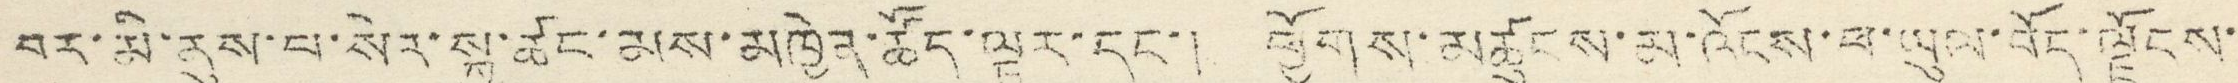བར་མི་རུང་པ་སེར་སྐྱ་ཚང་མས་མཁྱེན་ཚོད་ལྟར་དང་། ཕྱོགས་མཚུངས་མ་འོངས་ཕ་ཡུལ་བོད་ལྗོངས་
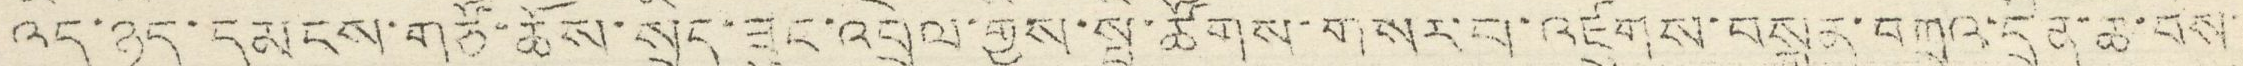འདི་ཉིད་དམངས་གཙོ་ཆོས་སྲིད་ཟུང་འབྲེལ་གྱིས་སྤྱི་ཚོགས་གསར་པ་འཛུགས་བསྐྲུན་བཀའ་དྲིན་ཆེ་བས་
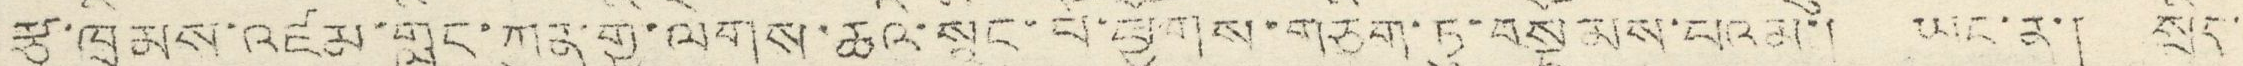རྩ་ཁྲིམས་འཛམ་གླིང་ཀུན་གྱི་ལེགས་ཆའི་སྙིང་པོ་ཕྱོགས་གཅིག་ཏུ་བསྡོམས་པའམ་། ཡང་ན་། སྲིད་
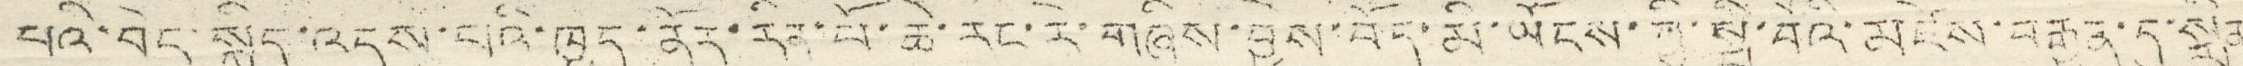པའི་བདེ་སྐྱིད་འདུས་པའི་ཁྱད་ནོར་རིན་པོ་ཆེ་རང་རེ་གཞིས་བྱས་བོད་མི་ཡོངས་ཀྱི་སྤྱི་བོའི་མཛེས་བརྒྱན་དུ་སྨིན
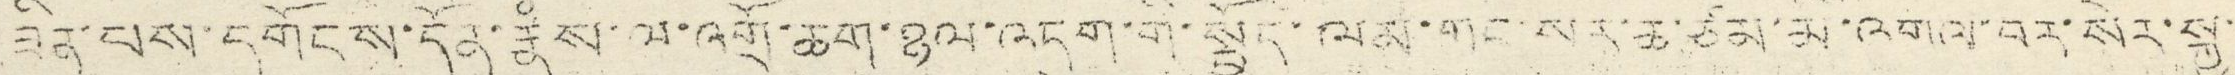ཟིན་པས་དགོངས་དོན་རྣཾས་ལ་འགྲོ་ཆག་ཉལ་འདུག་གི་སྤྱོད་ལམ་གང་སར་ཆ་ཙམ་མི་འགལ་བར་སེར་སྐྱ་
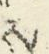ས
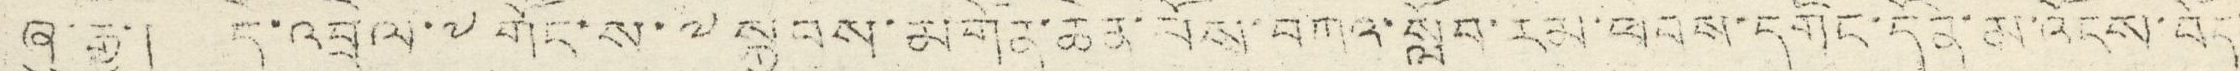ཞུ་རྒྱུ་། དེ་འབྲེལ་༸གོང་ས་༸སྐྱབས་མགོན་ཆེན་པོས་བཀའ་སློབ་རིམ་ཕེབས་དགོང་དོན་མ་འོངས་བོད་
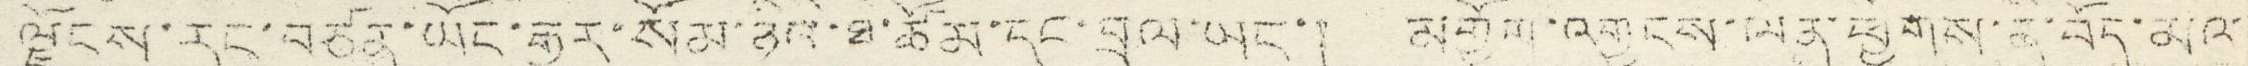ལྗོངས་རང་བཙན་ཡོང་རྒྱུར་སོམ་ཉིའི་ཐེ་ཚོམ་དང་བྲལ་ཡང་། མགྱོག་འགྱངས་ལེན་ཕྱོགས་ནི་བོད་མིའི་
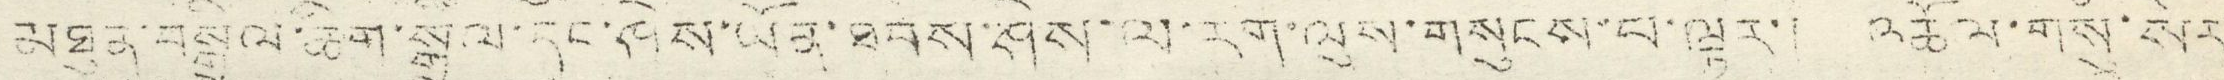མཐུན་བསྒྲིལ་ཆིག་སྒྲིལ་དང་ཤེས་ཡོན་ཐབས་ཤེས་ལ་རག་ལུས་གསུངས་བ་ལྟར་། འཆོལ་གསུཾ་སེར་
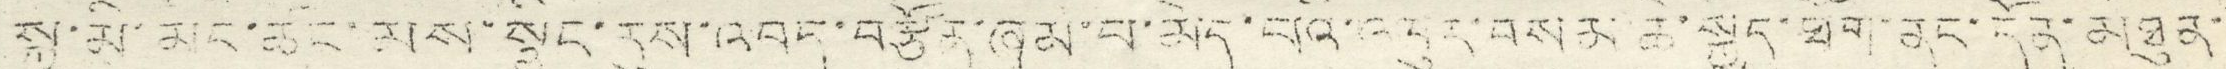སྐྱ་མི་མང་ཚང་མས་སྙིང་རུས་འབད་བརྩོན་ཞུམ་པ་མེད་པའི་འདུར་བསམ་ཆེ་སྐྱེད་ཐོག་ནང་དོན་མཐུན་
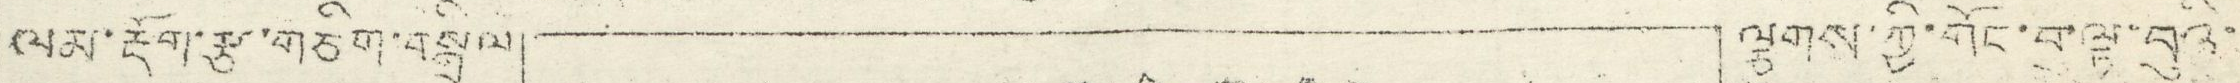ལམ་རྡོག་རྩ་གཅིག་བསྒྲིལ་ ལྕགས་ཀྱི་གོང་བུ་ལྟ་བུའི་
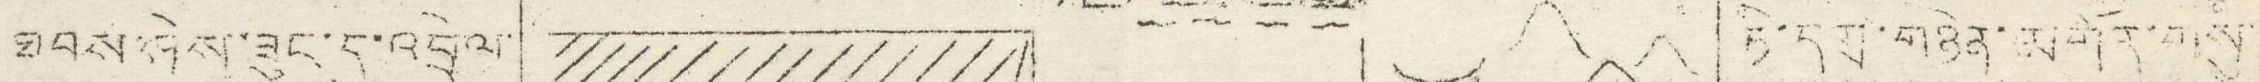ཐབས་ཤེས་ཟུང་དུ་འབྲེལ་ ཏི་དགྲ་གཉེན་མགོར་གསུཾ
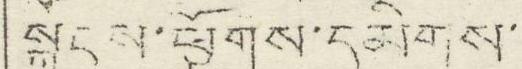སྐྱོངས་ཕྱོགས་དམིགས་
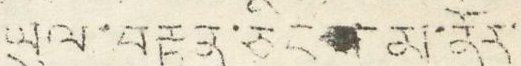ཡུལ་བརྟན་ཅིང་མ་ནོར་
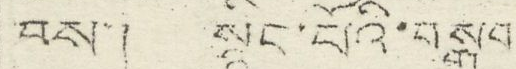བས་། སྙིང་པོའི་བསྒྲུབ་
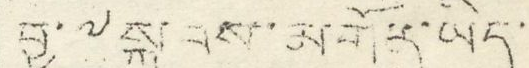བྱ་༸སྐྱབས་མགོར་ཡིད་
